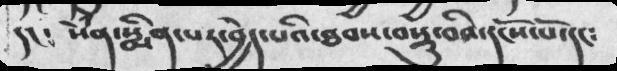དང༴     སེཾན་སྨིན་པར་བྱེད་པའི་ཐབས་བསྡུ་བའི་དངོས་པོ་དང༴
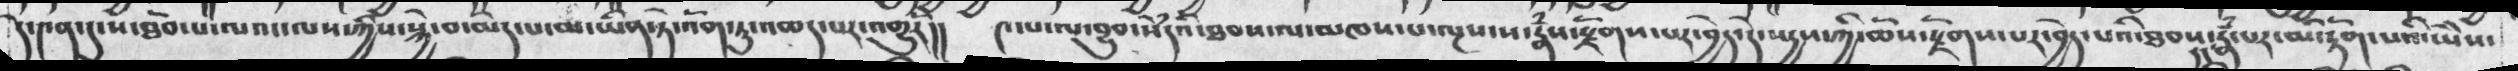དེ་༤ན་དུ་ས་ཐོབ་པ་ལའང་ལས་ཀྱིས་སྐྱེ་བ་མེད་པ་མ་ཡིན་ཏེ་འོག་ཏུ་འཆད་པར་འགྱུར།།    ༤་པ་ལ་བྱུབ་སེཾདའི་ཐབས་ལ་མཁས་པ་ལྔས་ས་རྣཾས་རྫོགས་པར་བྱེད་དེ་སདྱས་ཀྱི་ཆོས་རྫོགས་པར་བྱེད་པའི་ཐབས་དང་རྣཾ་པར་མི་རྟོག་པའི་ཡེེས་
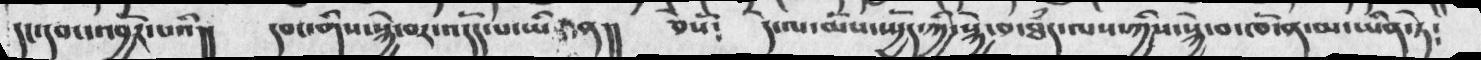དང་དབང་འབྱོར་པའི།།   དབང་གིས་སྐྱེ་བར་འདོད་པ་ཡི    ན།།    ཅེསོ༴     དེ་ལ་མོས་ཡྱོད་ཀྱི་སྐྱེ་བ་ཐཾད་ལས་ཀྱིས་སྐྱེ་བ་ཁོ་ན་མ་ཡིན་ཏེ༴
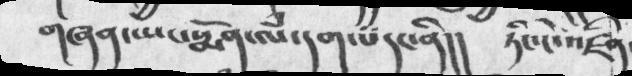གཞན་ཡང་སྨོན་ལཾ་དག་པ་དང་ནི།།    ཏིང་ངེ་འཛིན་
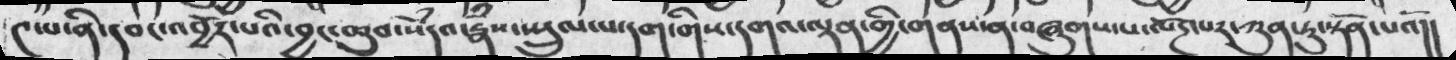༤་པ་ནི་དབང་འབྱོར་པའི་བྱང་ཆུབ་སེཾདའ་རྣཾས་ཡྲུལ་པ་དག་གིས་དགའ་ལྡན་གྱི་གནས་ན་བཞུགས་པ་ལོཌ་པར་ཀུན་ཏུ་སྟོན་པའོ།།
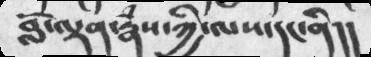བློ་ལྡན་རྣཾས་ཀྱི་ལས་དང་ནི།།
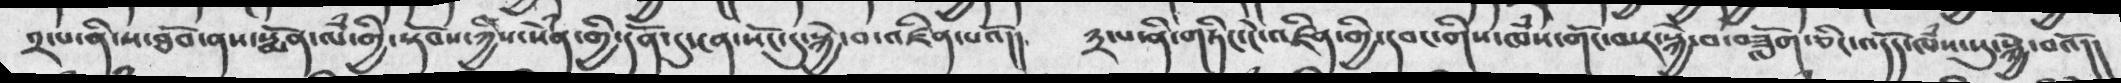༢་པ་ནི་ས་ཐོབ་ནས་སྨོན་ལཾ་གྱི་སྟོབས་ཀྱིས་སེྃན་གྱི་དོན་དུ་ངན་སོང་དུ་སྐྱེ་བ་འཛིན་པའོ།།   ༣་པ་ནི་གཏིང་ངེ་འཛིན་གྱི་དབང་གིས་ཁཾས་གོང་མར་སྐྱེ་བ་བཟློག་ཅིང་འདོད་ཁཾས་སུ་སྐྱེ་བའོ།།
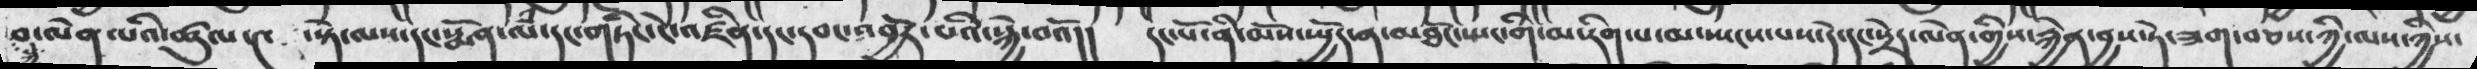བ་ལེན་པའི་ཚུལ་༤   ་སྟེ་ལས་དང་སྨོན་ལཾ་དང་གཏིང་ངེ་འཛིན་དང་དབང་འབྱོར་པའི་སྐྱེ་བའོ།།  དང་པོ་ནི་མོས་ཡྱོད་ན་མཐོང་སྤང་གི་མ་རིག་པ་མ་སྤངས་པས་དེ་དང་སྲེད་ལེན་གྱིས་རྐྱེན་བྱས་ཏེ་ཟག་བཅས་ཀྱི་ལས་ཀྱིས་
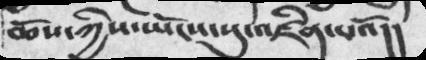ཆོས་ཀྱིས་ཡོངས་སུ་འཛིན་པའོ།།
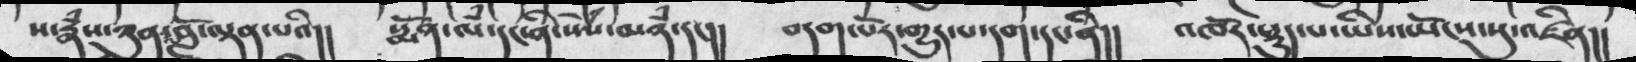ས་རྣཾས་ཀུན་བློ་ལྡན་པའི།།    སྨོན་ལཾ་དང་ནི་སེཾས་མཉཾ་དང།།   བདག་པོར་གྱུར་པ་དག་དང་ནི།།      འཁོར་སྡུད་པ་ཡིས་ཡོངས་སུ་འཛིན།།
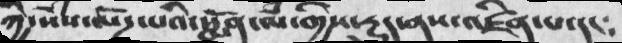ཀྱི་སེཾས་ལོཌ་པའི་སྨོན་ལཾ་གྱིས་རྱུད་ནས་འཛིན་པ་དང༴
